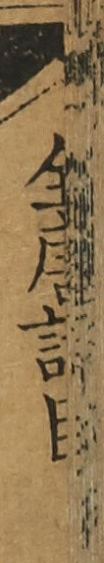全唐詩目
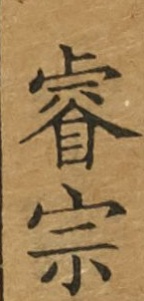睿宗
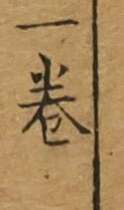一卷
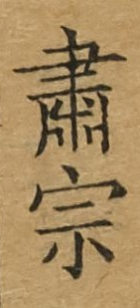肅宗
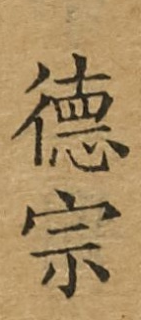德宗
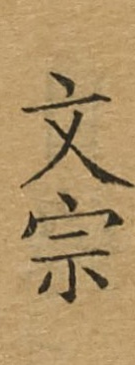文宗
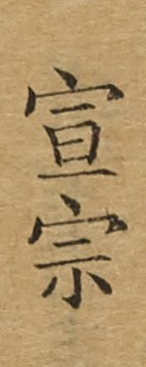宣宗
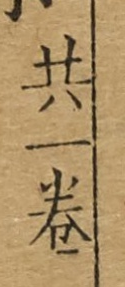共一卷
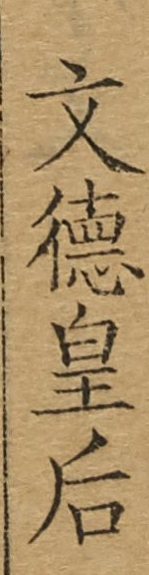文德皇后
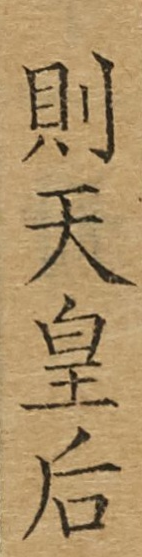則天皇后
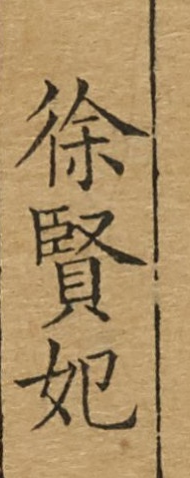徐賢妃
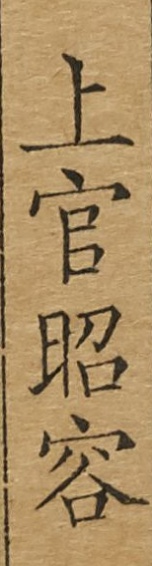上官昭容
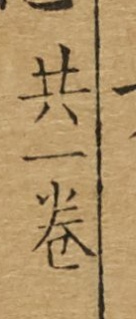共一卷
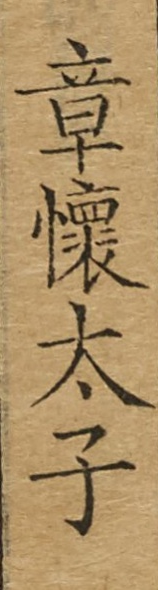章懷太子
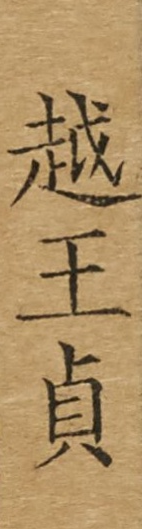越王貞
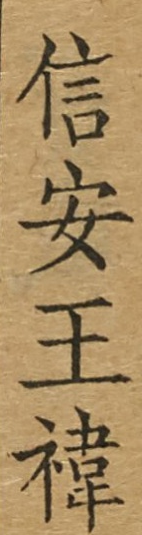信安王禕
